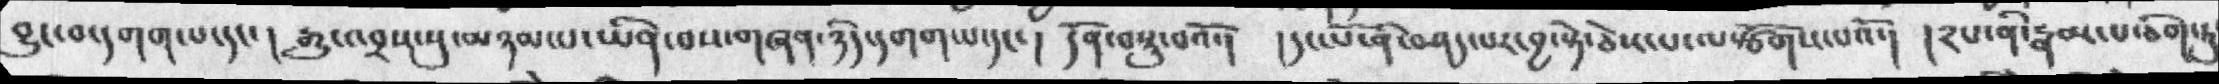བྱུང་བ་དགག་པ་དང་། རྒྱུ་འབྲས་སུ་མཉམ་པ་ཡིན་བས་གཞན་ཉིད་དགག་པ་དང་། དོན་བསྡུ་བའོ་། དང་པོ་ནི་བཤད་པར་བྱ་སྟེ་ཅེས་པ་ལསྩོགས་པའོ་། །༢པ་ནི་རྣམ་པ་ཅིག་ཏུ
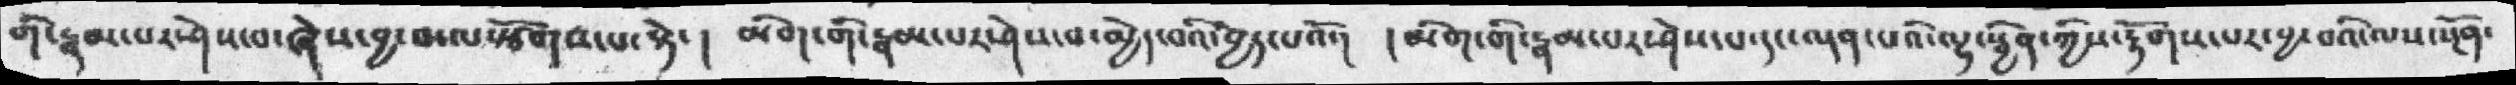གི་རྣམ་པར་ཤེས་བ་ཞེས་བྱ་བ་ལསྩོགས་པ་སྟེ་། མིག་གི་རྣམ་པར་ཤེས་པ་མྱེད་བའི་བྱེད་པའོ་།  །མིག་གི་རྣམ་པར་ཤེས་པ་དང་ལྡན་པའི་ལྷ་སྦྱིན་ཀྱིས་རྟོགས་པར་བྱ་བའི་ལས་སྔོན་
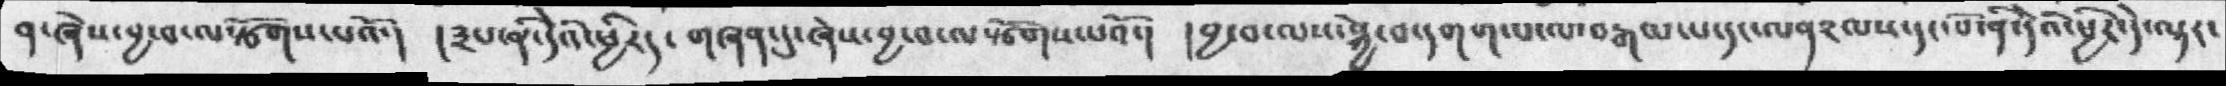ན་ཞེས་བྱ་བ་ལསྩོགས་པའོ་།  །༣པ་ནི་དའེི་ཕྱིརད་ གཞན་དུ་ཞེས་བྱ་བ་ལསྩོགས་པའོ་།  །བྱ་བ་ལས་སྐྱེ་བ་དགག་པ་ལ་བརྒལ་པ་དང་ལན༢ལས་དང་པོ་ནི་དེའི་ཕྱིར་དེ་ལྟར་
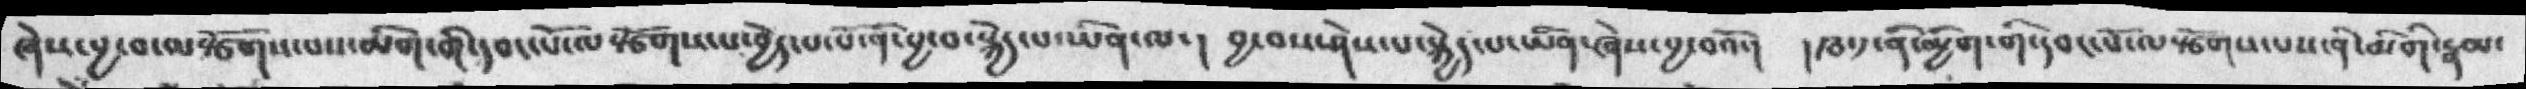ཞེས་བྱ་བ་ལསྩོགས་པས་མིག་གི་དབང་པོ་ལསྩོགས་པ་བྱེད་པ་པོ་ནི་བྱ་བ་སྐྱེད་པ་ཡིན་ལ་།  བྱ་བས་ཤེས་པ་སྐྱེད་པ་ཡིན་ཞེས་བྱ་བའོ་། །རྩ་༡་ནི་མྱིག་གི་དབང་པོ་ལསྩོགས་པས་ནི་མིགི་རྣམ་
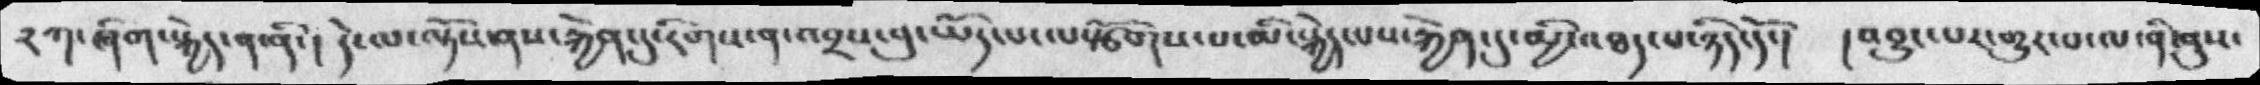༢ཀ་ཞིག་སྐྱེད་ན་ནི་། དེ་ལ་ལྟོས་ནས་རྐྱེན་དུ་རིགས་ན་འབྲས་བུ་ཡོད་པ་ལསྩོགས་པ་མི་སྐྱེད་པས་རྐྱེན་དུ་མྱི་འཐད་པ་ཉིད་དོ་།  །འབྱུང་པར་གྱུར་བ་ལ་ནི་ནུས་
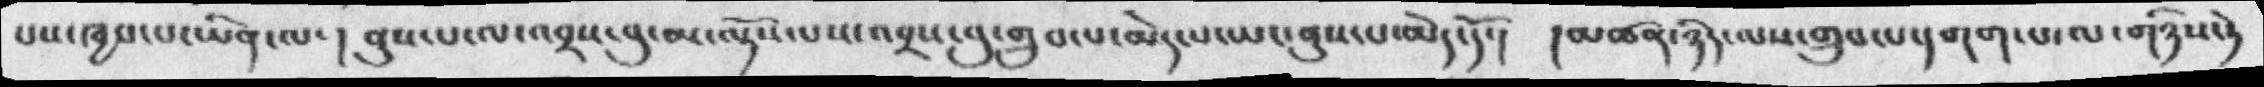པས་ཁྱབ་པ་ཡིན་ལ་།  ནུས་པ་ལ་འབྲས་བུ་མ་ལྟོས་པས་འབྲས་བུ་གྲུབ་པ་མེད་པ་ཡང་ནུས་པ་མེད་དོ་། །མཚན་ཉིད་ལས་གྲུབ་པ་དགག་པ་ལ་གཉིས་ཏེ
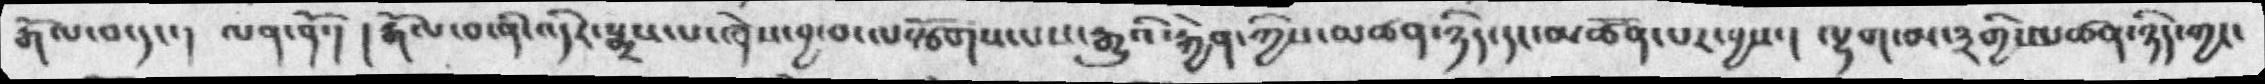རྒོལ་བ་དང་། ལན་ནོ་། །རྒོལ་བ་ནི་འདིར་སྨྲས་པ་ཞེས་བྱ་བ་ལསྩོགས་པས་རྒྱུའི་རྐྱེན་ཀྱིས་མཚན་ཉིད་དང་མཚོན་པར་བྱས་། ལྷག་མ་༣གྱི་མཚན་ཉིད་ཀྱང་
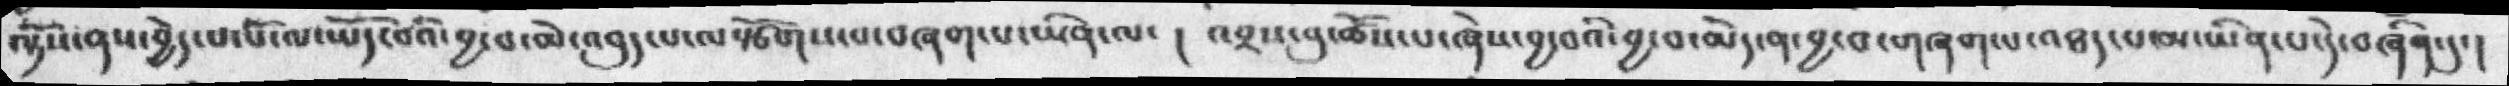ལྟོས་ནས་བྱེད་པ་པོ་ལ་ཡོད་པའི་བྱ་བ་མེ་འབུད་པ་ལསྩོགས་པ་བཞག་པ་ཡིན་ལ་།  འབྲས་བུ་ཚོས་པ་ཞེས་བྱ་བ་མེད་ན་བྱ་བ་གཞག་པ་འཐད་པ་མ་ཡིན་པ་དེ་བཞིན་དུ་།
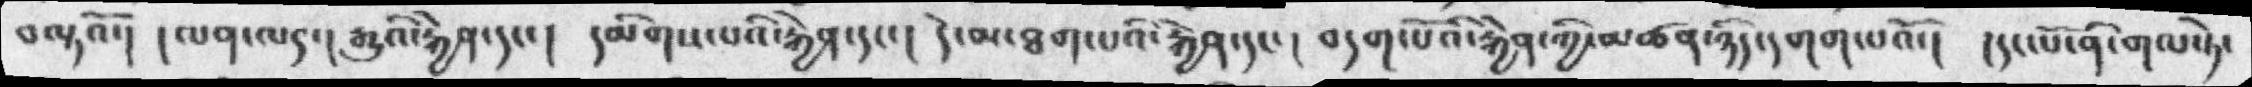བལྟའོ་།  །ལན་ལར་། རྒྱུའི་རྐྱེན་དང་།  དམིགས་པའི་རྐྱེན་དང་།   དེ་མ་ཐག་པའི་རྐྱེན་དང་།   བདག་པོའི་རྐྱེན་གྱི་མཚན་ཉིད་དགག་པའོ་།   །དང་པོ་ནི་གལ་ཏེ་
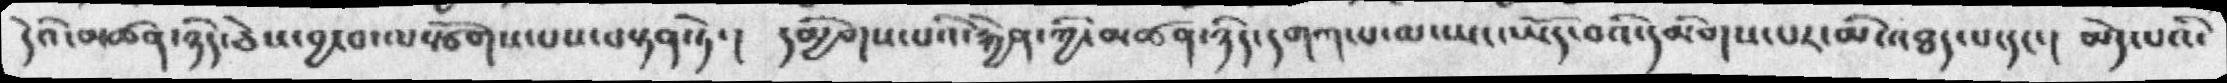དེའི་མཚན་ཉིད་ཅེས་བྱ་བ་ལསྩོགས་པས་བསྟན་ཏེ་།  དམིགས་པའི་རྐྱེན་ཀྱི་མཚན་ཉིད་དགག་པ་ལ་ཡང་ཡོད་བའི་དམིགས་པར་མི་འཐད་པ་དང་།   མེད་པའི་
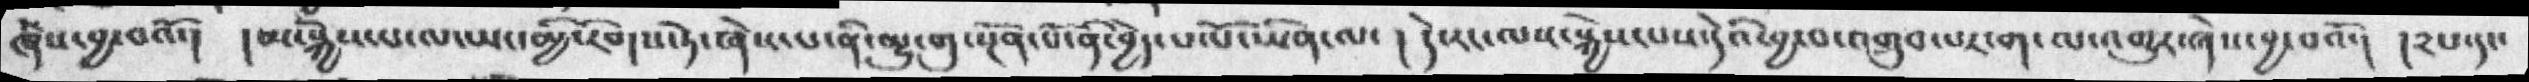ཞེས་བྱ་བའོ་། །མ་སྐྱེས་པ་ལ་ཡང་མྱི་རིགས་ཏེ་ཞེས་པ་ནི་མྱུ་གུ་སྔོན་པོ་ནི་བྱེད་པ་པོ་ཡིན་ལ་། དེ་རང་ལས་སྐྱེས་པས་དེའི་བྱ་བ་འགྲུབ་པར་ག་ལ་འགྱུར་ཞེས་བྱ་བའོ་། །༢པ་དང་
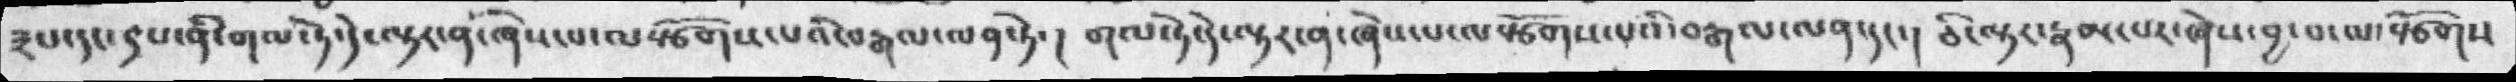༣པ་དང་༩པ་ནི་གལ་ཏེ་དེ་ལྟར་ན་ཞེས་པ་ལསྩོགས་པའི་བརྒལ་ལན་ཏེ་། གལ་ཏེ་དེ་ལྟར་ན་ཞེས་པ་ལསྩོགས་པའི་བརྒལ་ལན་དང་། ཅི་ལྟར་རྣམ་པར་ཞེས་བྱ་བ་ལ་སྩོགས
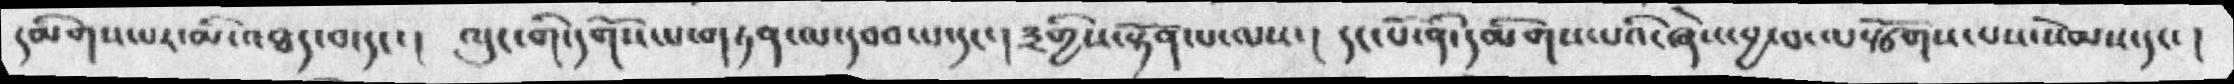དམིགས་པར་མི་འཐད་བ་དང་།  ལུང་གི་དགོས་པ་གཏན་ལ་དབབ་པ་དང་། ༣གྱིས་སྟོན་པ་ལས་། དང་པོ་ནི་དམིགས་པའི་ཞེས་བྱ་བ་ལསྩོགས་པས་སེམས་དང་།
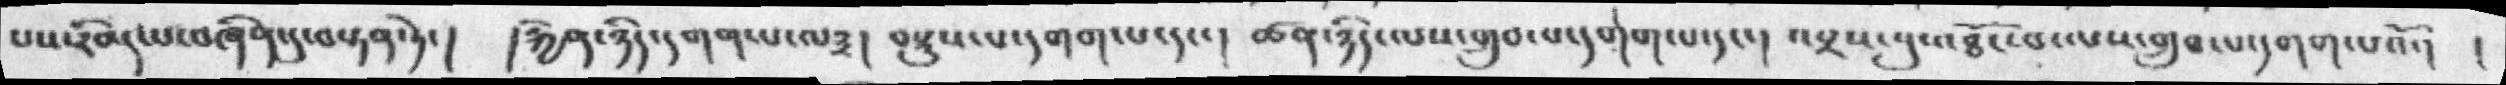པས་རིམ་པ་བཞིན་དུ་བསྟན་ཏེ་། །རྐྱེན་ཉིད་དགག་པ་ལ༣། བསྡུས་པ་དགག་པ་དང་། ཚན་ཉིད་ལས་གྲུབ་པ་དགག་པ་དང་། འབྲས་བུ་འཐོང་བ་ལས་གྲུབ་པ་དགག་པའོ་། །
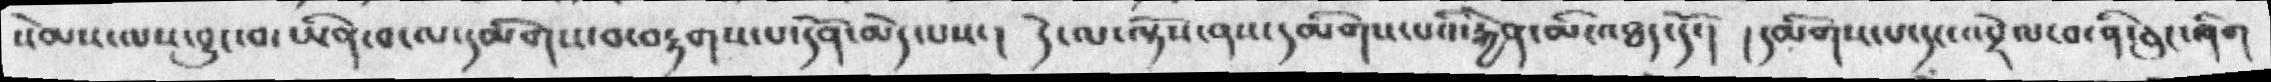སེམས་ལས་བྱུང་བ་ཡིན་བ་ལ་དམིགས་པ་བརྟགས་པ་དོན་མེད་པས་ ། དེ་ལ་ལྟོས་ནས་དམིགས་པའི་རྐྱེན་མི་འཐད་དོ་།  །མིགས་པ་དང་འབྲེལ་བ་ནི་ཅུང་ཞིག་
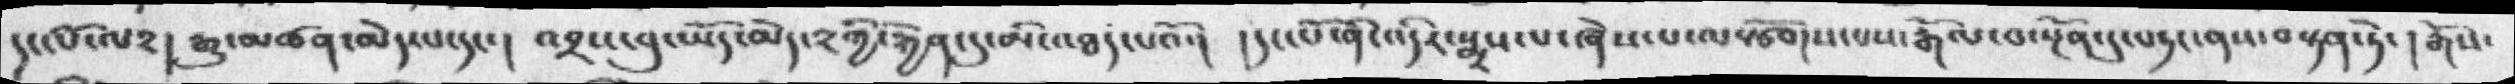དང་པོ་ལ༢། རྒྱུ་མཚན་མེད་པ་དང་ ། འབྲས་བུ་ཡོད་མེད་༢གྱི་རྐྱེན་དུ་མི་འཐད་པའོ་།  །དང་པོ་ནི་འདིར་སྨྲས་པ་ཞེས་པ་ལསྩོགས་པས་རྒོལ་བ་སྔོན་དུ་བཏང་ནས་བསྟན་ཏེ་ ། རྒོས་
